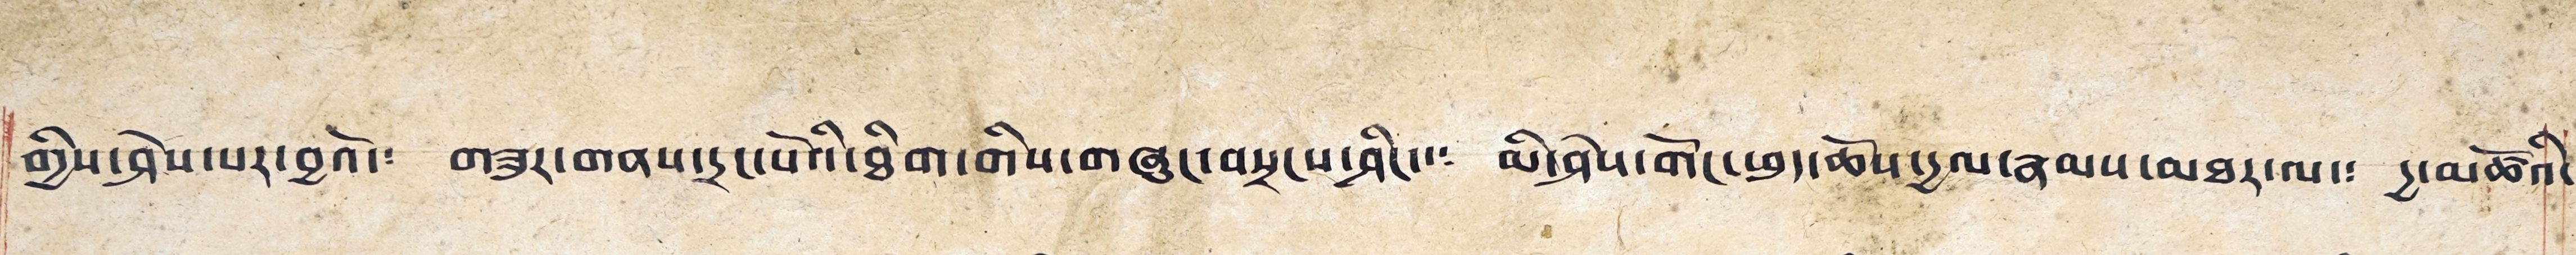གྱིས་ཤེས་པར་བྱའོ་༴ གཟུར་གནས་དྲང་པོའི་ཐིག་གིས་གཞུང་བསྲངས་ཤིང་༴ མི་ཤེས་གོང་ཕུད་ཆོས་དྱལ་རྣམས་མཐར་ལ་༴ དྱ་མཚོའ་
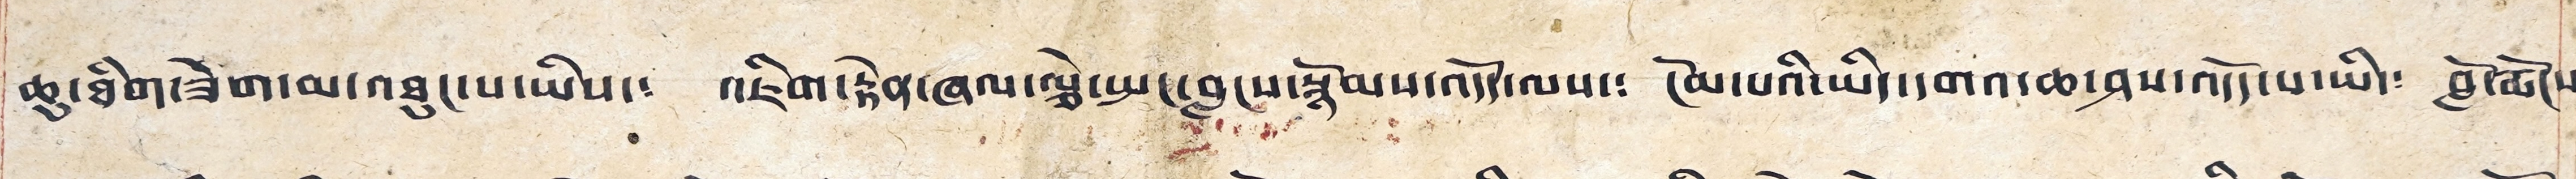ཆུ་ཐིག་ཟེག་མ་འཐུང་པ་ཡིས་༴ འཇིག་རྟེན་ཞལ་ལྕེ་སྤང་བླངས་སྙོམས་འདོད་ལས་༴ ངོམ་པའི་ཡིད་དགའ་ཆ་ཤས་འདོད་པ་ཡི་༴ བློ་རྨོངས༴
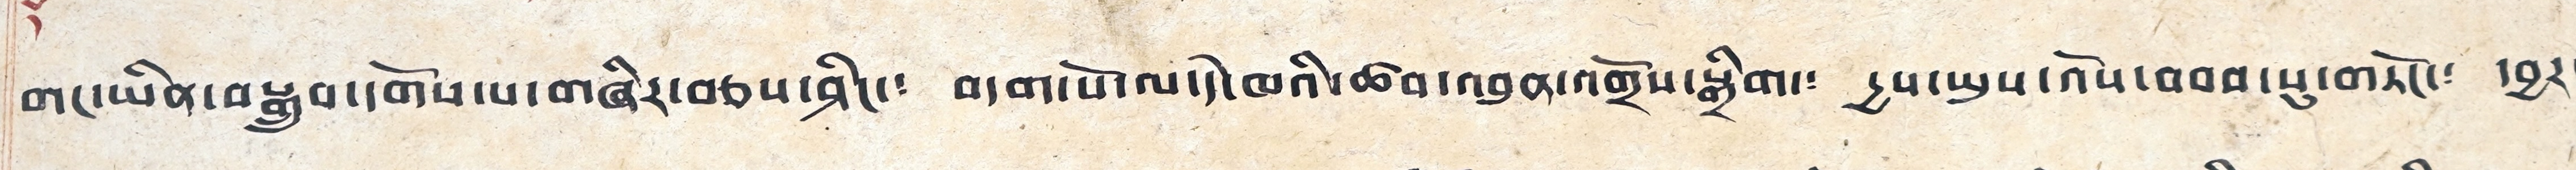གང་ཡིན་བསྒྲུབ་དགོས་པ་གཞིར་བཅས་ཤིང་༴ བདག་པོ་ལ་དེ་ཁའི་ཚབ་འབུན་འགྲོས་སྒྲིག་༴ དྱས་ཡུས་འོས་བབས་སུ་གཏོང་༴ དབྱར་
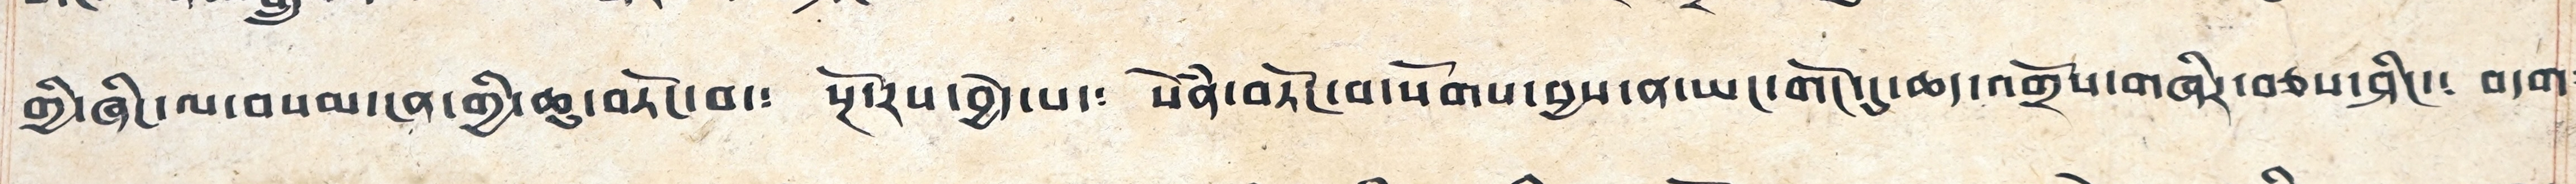གྱི་ཞིང་ལ་བསམ་ངན་གྱི་ཆུ་བཏོང་བ་༴ སྔོ་རས་བྱེད་པ་༴ སེཾན་བཏོང་བ་སོགས་བྱས་ན་ཡང་གོང་དུ་ཆད་འགྲོས་གཞིར་བཅས་ཤིང་༴ བདག༴
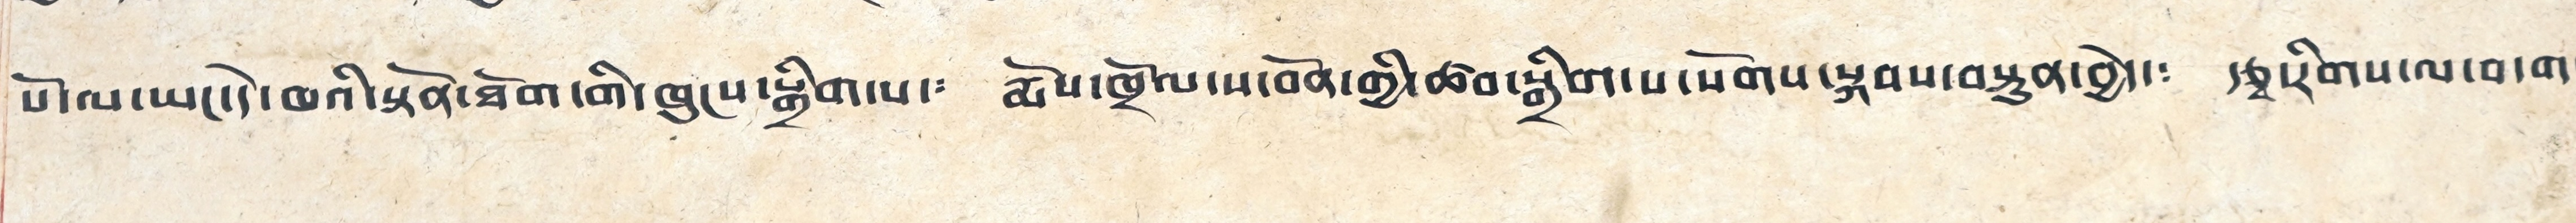པོ་ལ་ཡང་དེ་ཁའི་སྟོན་ཐོག་གི་ཁུངས་སྒྲིག་པ་༴ རྨོས་ཁྲོལ་ས་བོན་གྱི་ཚབ་སྒྲིག་པ་སོགས་སྐབས་བསྟུན་བྱེད་༴ རྩྭ་རིགས་ལ་བདག་
